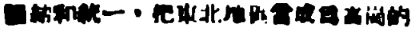團結和統一，把東北地區當成爲高崗的
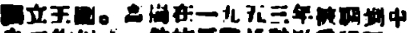獨立王國。高崗在一九五三年被調到中
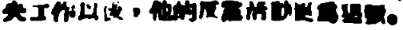央工作以後，他的反黨活動更爲猖獗。
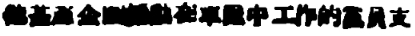他甚至企圖煽動在軍隊中工作的黨員支
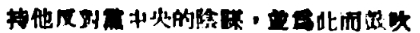持他反對黨中央的陰謀，並爲此而鼓吹
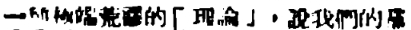一種極端荒謬的「理論」，說我們的黨
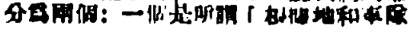分爲兩個：一個是所謂「根據地和軍隊
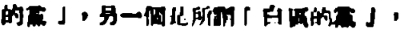的黨」，另一個是所謂「白區的黨」，
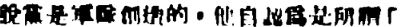說黨是軍隊創造的，他自認爲是所謂「
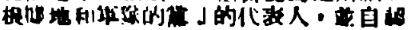根據地和軍隊的黨」的代表人，並自認
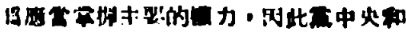爲應當掌握主要的權力，因此黨中央和
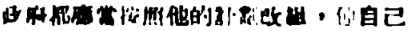政府都應當按照他的計劃改組，他自己
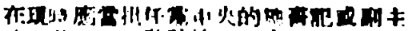在現時應當擔任黨中央的總書記或副主
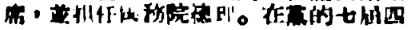席，並担任國務院總理。在黨的七屆四
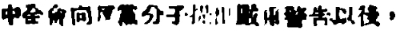中全會向反黨分子提出嚴重警告以後，
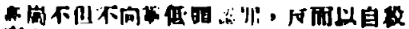高崗不但不向黨低頭認罪，反而以自殺
